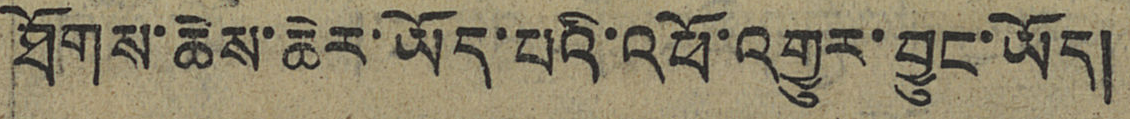ཐོགས་ཆེས་ཆེར་ཡོད་པའི་འཕོ་འགྱུར་བྱུང་ཡོད།
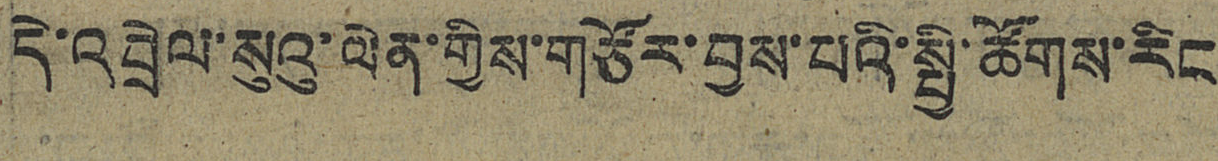དེ་འབྲེལ་སུའུ་ལེན་གྱིས་གཙོར་བྱས་པའི་སྤྱི་ཚོགས་རིང
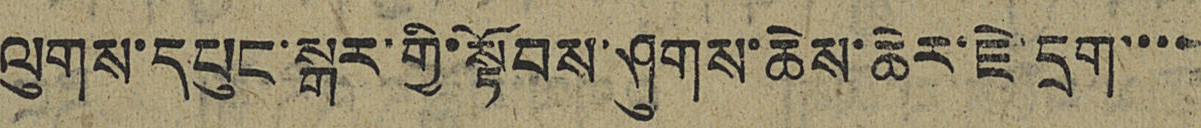ལུགས་དཔུང་སྒར་གྱི་སྟོབས་ཤུགས་ཆེས་ཆེར་ཇེ་དྲག་་་་
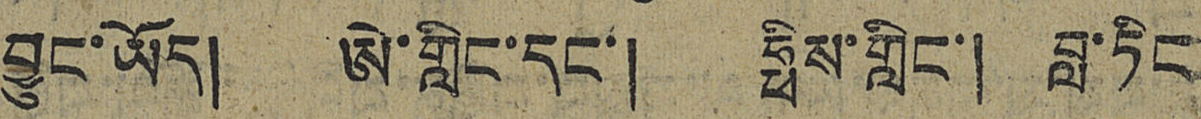བྱུང་ཡོད། ཨེ་གླིང་དང་། ཧྥིས་གླིང་། བླ་ཏིང
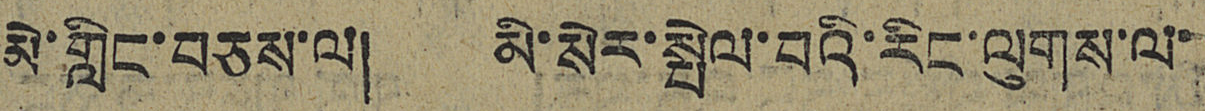མེ་གླིང་བཅས་ལ། མི་སེར་སྤེལ་བའི་རིང་ལུགས་ལ་
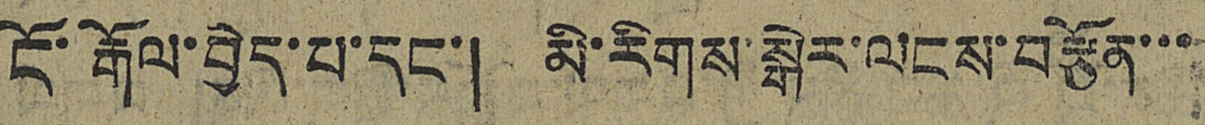ངོ་རྒོལ་བྱེད་པ་དང་། མི་རིགས་སྒེར་ལངས་བརྩོན་་་
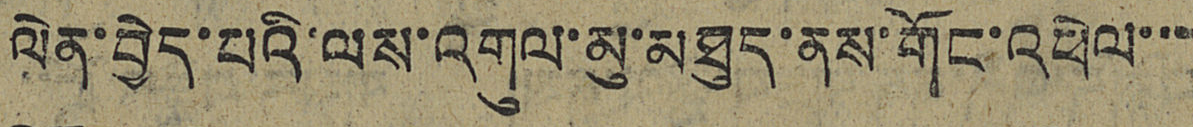ལེན་བྱེད་པའི་ལས་འགུལ་མུ་མཐུད་ནས་གོང་འཕེལ་་་
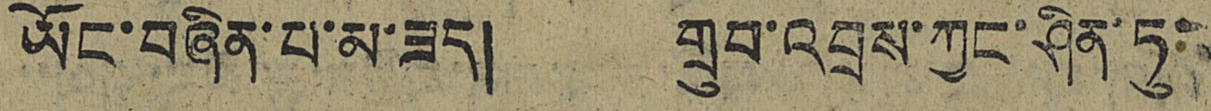ཡོང་བཞིན་པ་མ་ཟད། གྲུབ་འབྲས་ཀྱང་ཤིན་ཏུ་
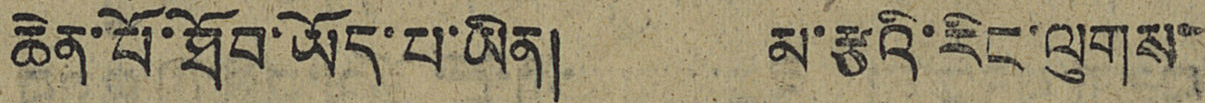ཆེན་པོ་ཐོབ་ཡོད་པ་ཡིན། མ་རྩའི་རིང་ལུགས་
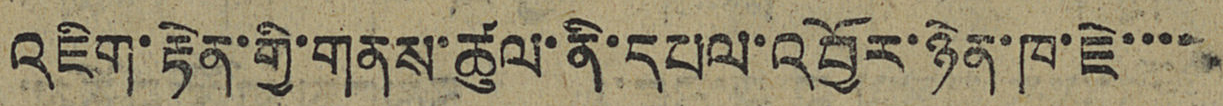འཇིག་རྟེན་གྱི་གནས་ཚུལ་ནི་དཔལ་འབྱོར་ཉེན་ཁ་ཇེ་་་་
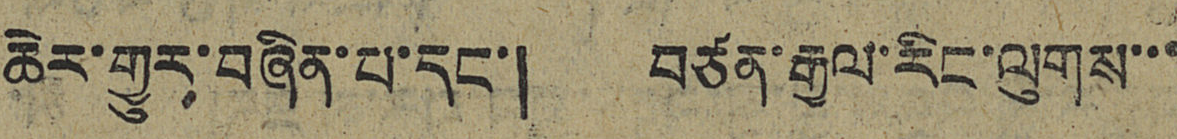ཆེར་གྱུར་བཞིན་པ་དང་། བཙན་རྒྱལ་རིང་ལུགས་་་
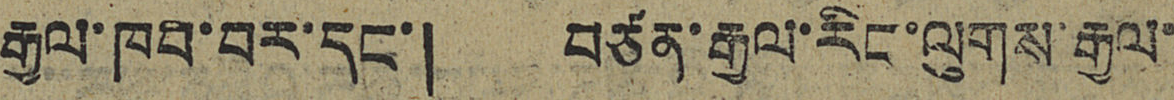རྒྱལ་ཁབ་བར་དང་། བཙན་རྒྱལ་རིང་ལུགས་རྒྱལ་
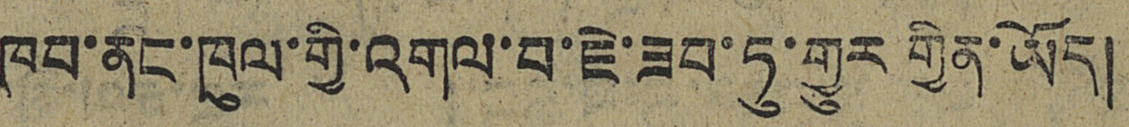ཁབ་ནང་ཁུལ་གྱི་འགལ་བ་ཇེ་ཟབ་ཏུ་གྱུར་གྱིན་ཡོད།
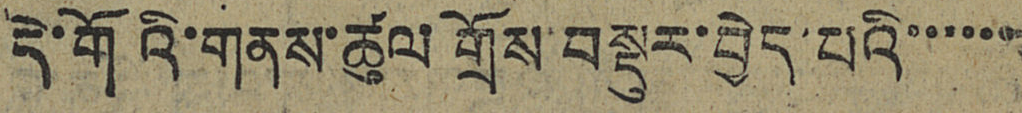དེ་གོའི་གནས་ཚུལ གྲོས་བསྡུར་བྱེད་པའི་་་་་་
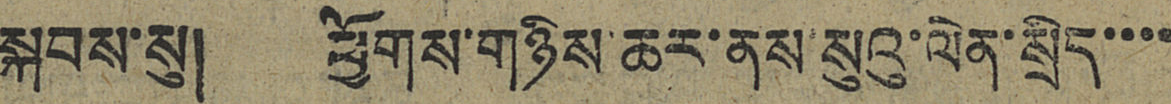སྐབས་སུ། ཕྱོགས་གཉིས་ཆར་ནས་སུའུ་ལེན་སྲིད་་་་
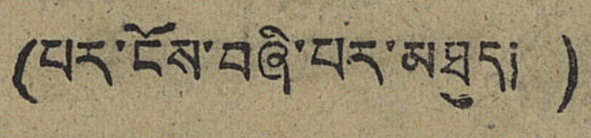(པར་ངོས་བཞི་པར་མཐུད།)
